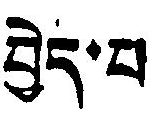བྱེད་པ
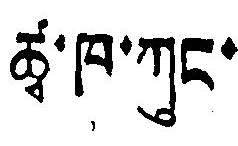ཚྭ་ཁ་ཀུང་
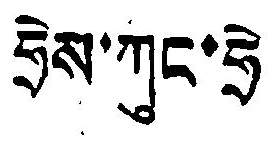ཧྲེས་ཀུང་ཧྲེ
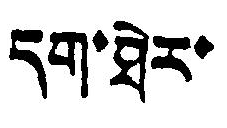དག་ཐེར་
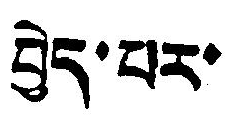བྱེད་པར་
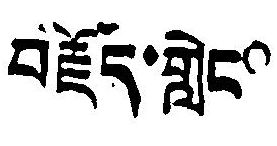བརྗོད་གླེང。
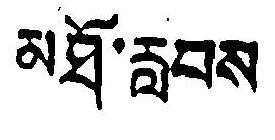མཐོ་རླབས
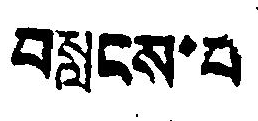བསླངས་པ
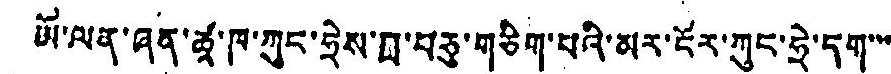ཡོ་ལན་ཞན་ཚྭ་ཁ་ཀུང་ཧྲེས་ཀླ་བཅུ་གཅིག་པའི་མར་ངོར་ཀུང་ཧྲེ་དག་་་
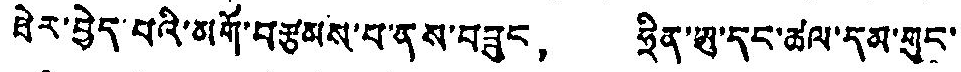ཐེར་བྱེད་པའི་མགོ་བརྩམས་པ་ནས་བཟུང， ཧྲིན་ཨུ་དང་ཚལ་དམ་གུང་
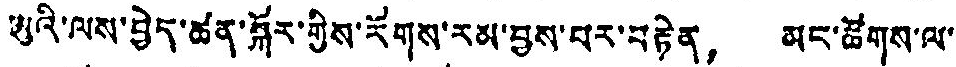ཡུའི་ལས་བྱེད་ཚན་སྐོར་གྱིས་རོགས་རམ་བྱས་པར་བརྟེན， མང་ཚོགས་ལ་
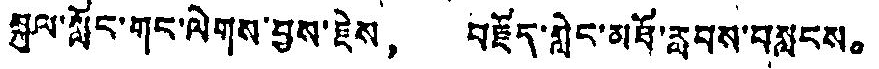སྐུལ་སློང་གང་ལེགས་བྱས་རྗེས， བརྗོད་གླེང་མཐོ་རླབས་བསླངས。
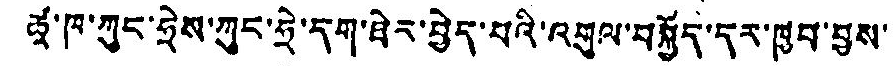ཚྭ་ཁ་ཀུང་ཧྲེས་ཀུང་ཧྲེ་དག་ཐེར་བྱེད་པའི་འགུལ་བསྐྱོད་དར་ཁྱབ་བྱས་
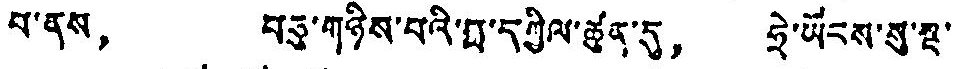པ་ནས， བཅུ་གཉིས་པའི་བླ་དཀྱིལ་ཚུན་དུ， ཧྲེ་ཡོངས་སུ་སྔ་
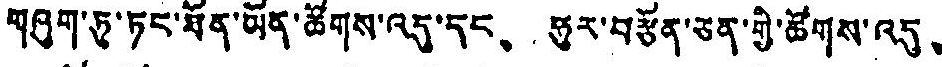གཞུག་ཏུ་ཏང་ཐོན་ཡོན་ཚོགས་འདུ་དང、 ཧུར་བརྩོན་ཅན་གྱི་ཚོགས་འདུ、
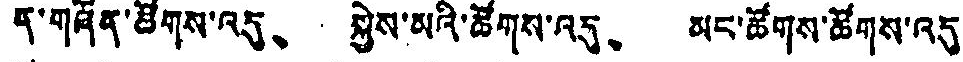ད་གཞོན་ཚོགས་འདུ、 སྐྱེས་མའི་ཚོགས་འདུ、 མང་ཚོགས་ཚོགས་འདུ
